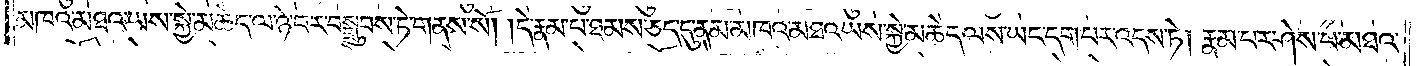མཁའ་མཐའ་ཡས་སྐྱེ་མཆེད་ལ་ཉེ་བར་བསྒྲུབས་ཏེ་གནས་སོ། །དེ་རྣམ་པ་ཐམས་ཅད་དུ་ནམ་མཁའ་མཐའ་ཡས་སྐྱེ་མཆེད་ལས་ཡང་དག་པར་འདས་ཏེ། རྣམ་པར་ཤེས་པ་མཐའ་
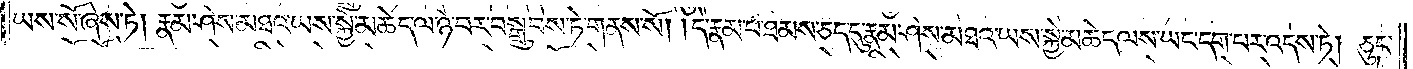ཡས་སོ་ཞེས་ཏེ། རྣམ་ཤེས་མཐའ་ཡས་སྐྱེ་མཆེད་ལ་ཉེ་བར་བསྒྲུབས་ཏེ་གནས་སོ། །དེ་རྣམ་པ་ཐམས་ཅད་དུ་རྣམ་ཤེས་མཐའ་ཡས་སྐྱེ་མཆེད་ལས་ཡང་དག་པར་འདས་ཏེ། ཅུང་
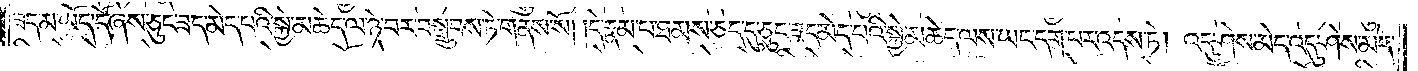ཟད་མ་ཡོད་དོ་ཞེས་ཅུང་ཟད་མེད་པའི་སྐྱེ་མཆེད་ལ་ཉེ་བར་བསྒྲུབས་ཏེ་གནས་སོ། །དེ་རྣམ་པ་ཐམས་ཅད་དུ་ཅུང་ཟད་མེད་པའི་སྐྱེ་མཆེད་ལས་ཡང་དག་པར་འདས་ཏེ། འདུ་ཤེས་མེད་འདུ་ཤེས་མེད་
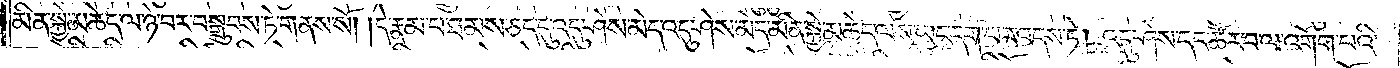མིན་སྐྱེ་མཆེད་ལ་ཉེ་བར་བསྒྲུབས་ཏེ་གནས་སོ། །དེ་རྣམ་པ་ཐམས་ཅད་དུ་འདུ་ཤེས་མེད་འདུ་ཤེས་མེད་མིན་སྐྱེ་མཆེད་ལས་ཡང་དག་པར་འདས་ཏེ། འདུ་ཤེས་དང་ཚོར་བ་འགོག་པའི་
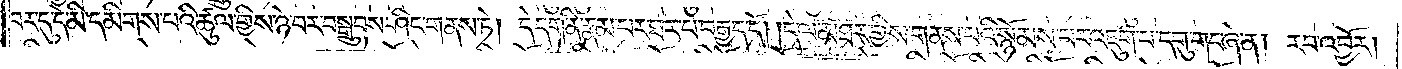བར་དུ་དེ་མི་དམིགས་པའི་ཚུལ་གྱིས་ཉེ་བར་བསྒྲུབས་ཤིང་གནས་ཏེ། དེ་དག་ནི་རྣམ་པར་ཐར་པ་བརྒྱད་དོ། །དེ་ལ་མཐར་གྱིས་གནས་པའི་སྙོམས་པར་འཇུག་པ་དགུ་གང་ཞེ་ན། རབ་འབྱོར།
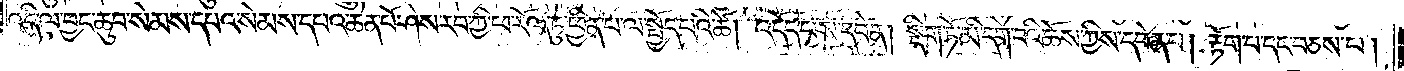འདི་ལ་བྱང་ཆུབ་སེམས་དཔའ་སེམས་དཔའ་ཆེན་པོ་ཤེས་རབ་ཀྱི་ཕ་རོལ་ཏུ་ཕྱིན་པ་ལ་སྤྱོད་པའི་ཚེ། འདོད་པས་དབེན། སྡིག་ཏོ་མི་དགེ་བའི་ཆོས་ཀྱིས་དབེན་པ། རྟོག་པ་དང་བཅས་པ།
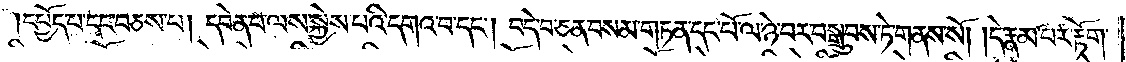དཔྱོད་པ་དང་བཅས་པ། དབེན་པ་ལས་སྐྱེས་པའི་དགའ་བ་དང༌། བདེ་བ་ཅན་བསམ་གཏན་དང་པོ་ལ་ཉེ་བར་བསྒྲུབས་ཏེ་གནས་སོ། །དེ་རྣམ་པར་རྟོག་
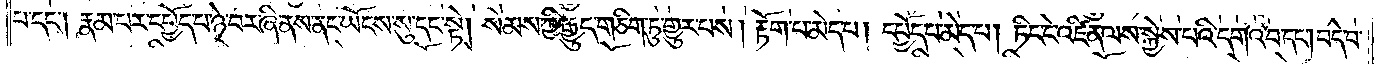པ་དང༌། རྣམ་པར་དཔྱོད་པ་ཉེ་བར་ཞི་ནས་ནང་ཡོངས་སུ་དང་སྟེ། སེམས་ཀྱི་རྒྱུད་གཅིག་ཏུ་གྱུར་པས། རྟོག་པ་མེད་པ། དཔྱོད་པ་མེད་པ། ཏིང་ངེ་འཛིན་ལས་སྐྱེས་པའི་དགའ་བ་དང༌། བདེ་བ་
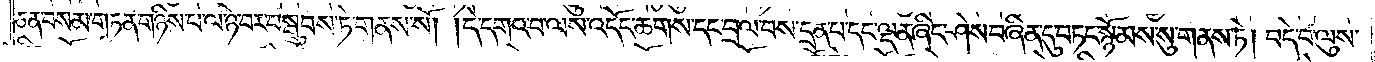ཅན་བསམ་གཏན་གཉིས་པ་ལ་ཉེ་བར་བསྒྲུབས་ཏེ་གནས་སོ། །དེ་དགའ་བ་ལས་འདོད་ཆགས་དང་བྲལ་བས་དྲན་པ་དང་ལྡན་ཞིང་ཤེས་བཞིན་དུ་བཏང་སྙོམས་སུ་གནས་ཏེ། བདེ་བ་ལུས་
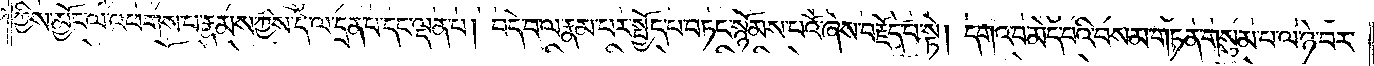ཀྱིས་མྱོང་ལ་འཕགས་པ་རྣམས་ཀྱིས་དེ་ལ་དྲན་པ་དང་ལྡན་པ། བདེ་བ་ལ་རྣམ་པར་སྤྱོད་པ་བཏང་སྙོམས་པའོ་ཞེས་བརྗོད་པ་སྟེ། དགའ་བ་མེད་པའི་བསམ་གཏན་གསུམ་པ་ལ་ཉེ་བར་
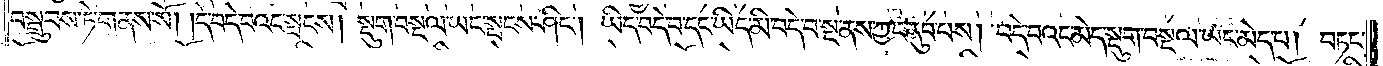བསྒྲུབས་ཏེ་གནས་སོ། །དེ་བདེ་བའང་སྤངས། སྡུག་བསྔལ་ཡང་སྤངས་ཤིང༌། ཡིད་བདེ་བ་དང་ཡིད་མི་བདེ་བ་སྔ་ནས་ཀྱང་ནུབ་པས། བདེ་བའང་མང་སྡུག་བསྔལ་ཡང་མེད་པ། བཏང་
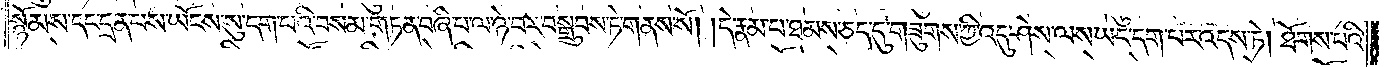སྙོམས་དང་དྲན་པས་ཡོངས་སུ་དག་པའི་བསམ་གཏན་བཞི་པ་ལ་ཉེ་བར་བསྒྲུབས་ཏེ་གནས་སོ། །དེ་རྣམ་པ་ཐམས་ཅད་དུ་གཟུགས་ཀྱི་འདུ་ཤེས་ལས་ཡང་དག་པར་འདས་ཏེ། ཐོགས་པའི་
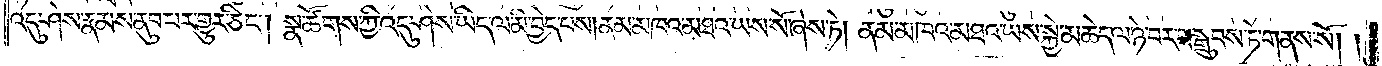འདུ་ཤེས་རྣམས་ནུབ་པར་གྱུར་ཅིང༌། སྣ་ཚོགས་ཀྱི་འདུ་ཤེས་ཡིད་ལ་མི་བྱེད་པས། ནམ་མཁའ་མཐའ་ཡས་སོ་ཞེས་ཏེ། ནམ་མཁའ་མཐའ་ཡས་སྐྱེ་མཆེད་ལ་ཉེ་བར་བསྒྲུབས་ཏེ་གནས་སོ། །
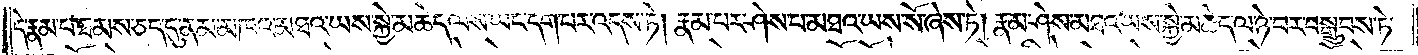དེ་རྣམ་པ་ཐམས་ཅད་དུ་ནམ་མཁའ་མཐའ་ཡས་སྐྱེ་མཆེད་ལས་ཡང་དག་པར་འདས་ཏེ། རྣམ་པར་ཤེས་པ་མཐའ་ཡས་སོ་ཞེས་ཏེ། རྣམ་ཤེས་མཐའ་ཡས་སྐྱེ་མཆེད་ལ་ཉེ་བར་བསྒྲུབས་ཏེ་
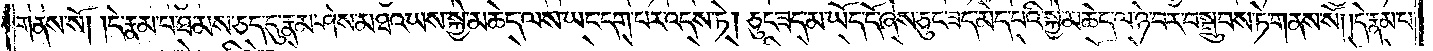གནས་སོ། །དེ་རྣམ་པ་ཐམས་ཅད་དུ་རྣམ་ཤེས་མཐའ་ཡས་སྐྱེ་མཆེད་ལས་ཡང་དག་པར་འདས་ཏེ། ཅུང་ཟད་མ་ཡོད་དོ་ཞེས་ཅུང་ཟད་མེད་པའི་སྐྱེ་མཆེད་ལ་ཉེ་བར་བསྒྲུབས་ཏེ་གནས་སོ། །དེ་རྣམ་པ་
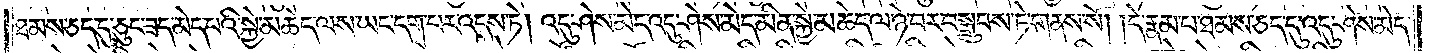ཐམས་ཅད་དུ་ཅུང་ཟད་མེད་པའི་སྐྱེ་མཆེད་ལས་ཡང་དག་པར་འདས་ཏེ། འདུ་ཤེས་མེད་འདུ་ཤེས་མེད་མིན་སྐྱེ་མཆེད་ལ་ཉེ་བར་བསྒྲུབས་ཏེ་གནས་སོ། །དེ་རྣམ་པ་ཐམས་ཅད་དུ་འདུ་ཤེས་མེད་
